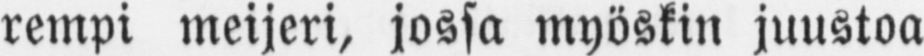rempi meijeri, jossa myöskin juustoa
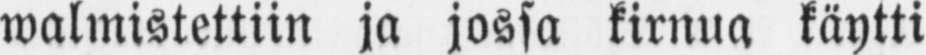walmistettiin ja jossa kirnua käytti
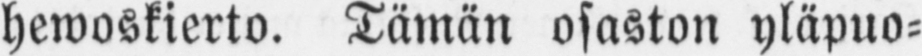hewoskierto. Tämän osaston yläpuo-
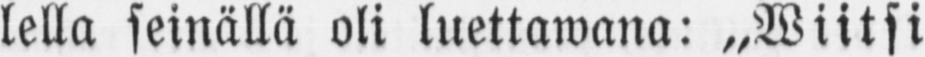lella seinällä oli luettawana: „Wiitsi
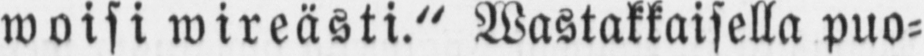woisi wireästi." Wastakkaisella puo-
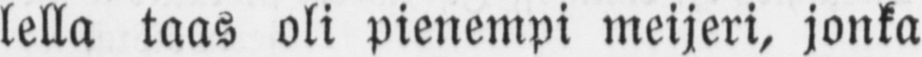lella taas oli pienempi meijeri, jonka
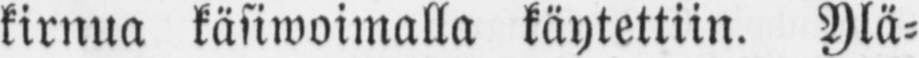kirnua käsiwoimalla käytettiin. Ylä-
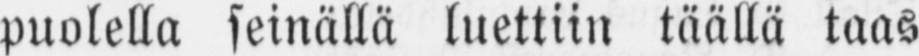puolella seinällä luettiin täällä taas
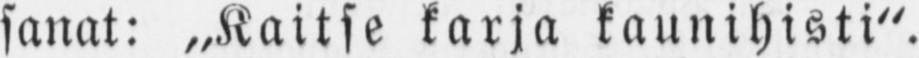sanat: „Kaitse karja kaunihisti".
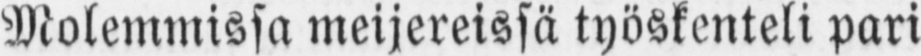Molemmissa meijereissä työskenteli pari
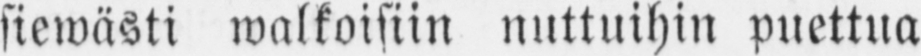siewästi walkoisiin nuttuihin puettua
